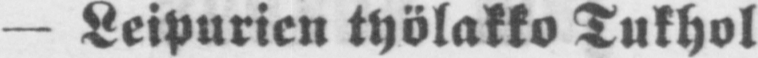— Leipurien työlakko Tukhol
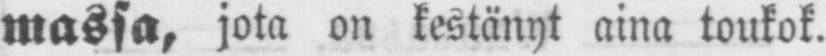massa, jota on kestänyt aina toukok.
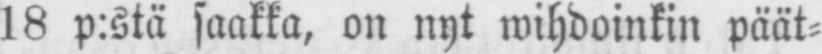18 p:stä saakka, on nyt wihdoinkin päät-
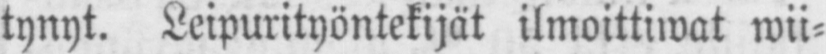tynyt. Leipurityöntekijät ilmoittiwat wii-
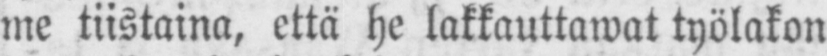me tiistaina, että he lakkauttawat työlakon
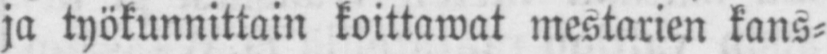ja työkunnittain koittawat mestarien kans-
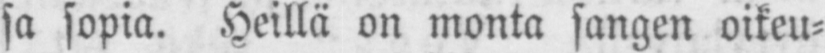sa sopia. Heillä on monta sangen oikeu-
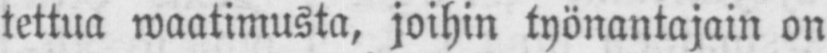tettua waatimusta, joihin työnantajain on
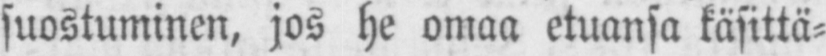suostuminen, jos he omaa etuansa käsittä-
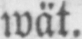wät.
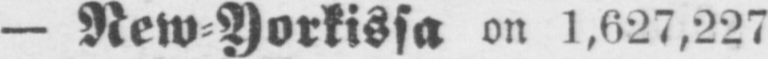— New-Yorkissa on 1,627,227
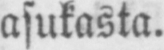asukasta.
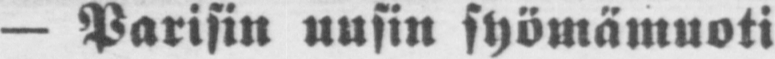— Parisin uusin syömämuoti
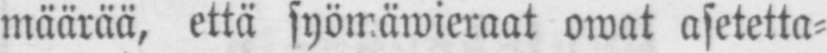määrää, että syömäwieraat owat asetetta-
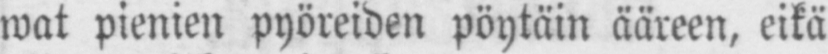wat pienien pyöreiden pöytäin ääreen, eikä
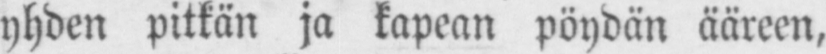yhden pitkän ja kapean pöydän ääreen,
